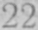22
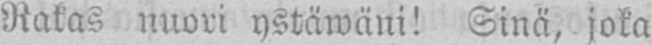Rakas nuori ystäwäni! Sinä, joka
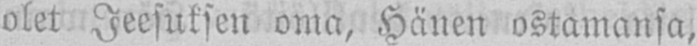olet Jeesuksen oma, Hänen ostamansa,
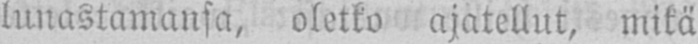lunastamansa, oletko ajatellut, mikä
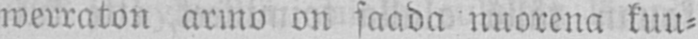werraton armo on saada nuorena kuu-
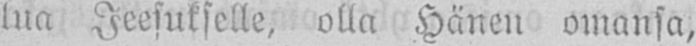lua Jeesukselle, olla Hänen omansa,
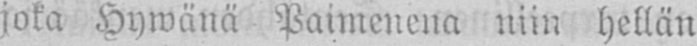joka H ywänä Paimenena niin hellän
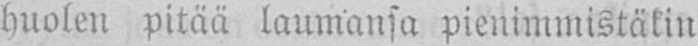huolen pitää laumansa pienimmistäkin
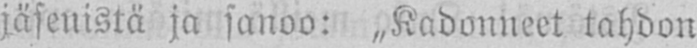jäsenistä ja sanoo: „Kadonneet tahdon
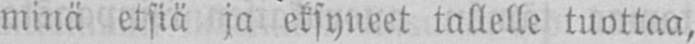minä etsiä ja eksyneet tallelle tuottaa,
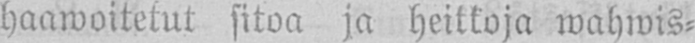haawoitetut sitoa ja heikkoja wahwis-
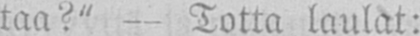taa?" — Totta laulat:
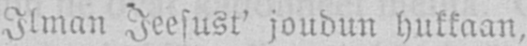Ilman Jeesust' joudun hukkaan,
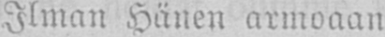Ilman Hänen armoaan
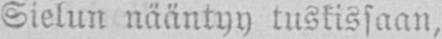Sielun nääntyy tuskissaan,
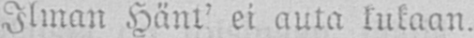Ilman Hänt' ei auta kukaan.
